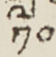༡༠
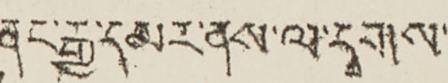ནང་རྒྱ་དམར་ནས་ལ་དྭགས་
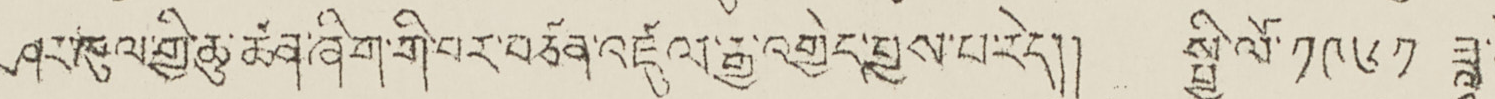ཤར་ཁུལ་གྱི་ཆུ་ཚན་ཞིག་གི་བར་བཙན་འཛུལ་རྒྱ་འགྱེད་བྱས་པ་རེད།། སྤྱི་ལོ་ ༡༩༦༡ ཟླ་
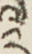༢
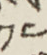༡༤
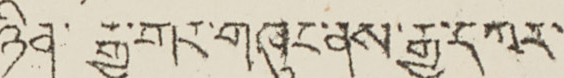ཉིན་རྒྱ་གར་གཞུང་ནས་རྒྱ་དཀར་
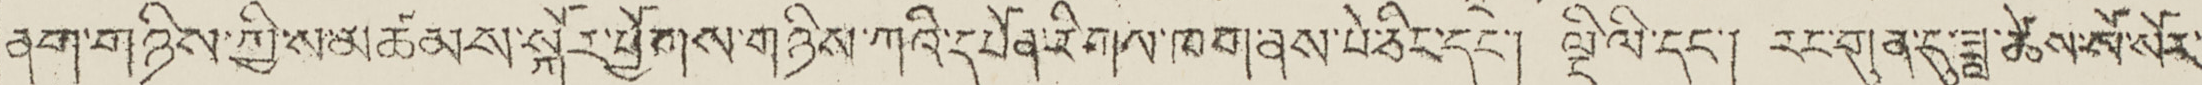ནག་གཉིས་ཀྱིས་མཚམས་སྐོར་ཕྱོགས་གཉིས་ཀའི་དཔོན་རིགས་ཁག་ནས་པེ་ཅིང་དང་། ལྡི་ལི་དང་། རང་གུན་དུ་ཟླ་ཚེས་སོ་སོར་
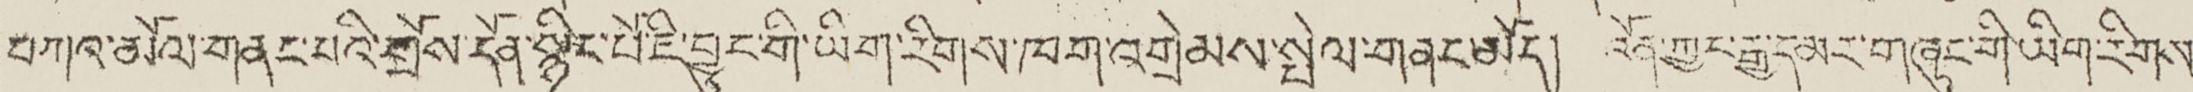བཀའ་མོལ་གནང་པའི་བྲོས་དོན་སྙིང་པོ་ཇི་བྱུང་གི་ཡིག་རིགས་ཁག་འགྲེམས་སྤེལ་གནང་མདོ། འོན་ཀྱང་རྒྱ་དམར་གཞུང་གི་ཡིག་རིགས་
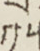༡༥
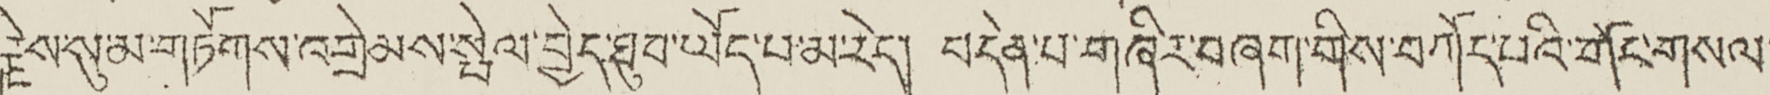རྗེས་སུ་མ་གཏོགས་འགྲེམས་སྤེལ་བྱེད་ཐུབ་ཡོད་པ་མ་རེད་། བདེན་པ་བཞིར་བཞག་གིས་བཀོད་པའི་གོང་གསལ་
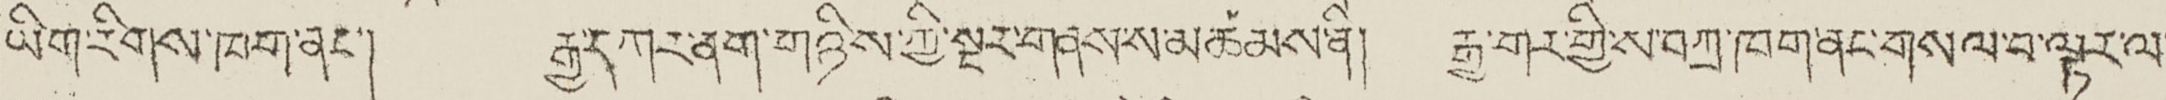ཡིག་རིགས་ཁག་ནང་། རྒྱ་དཀར་ནག་གཉིས་ཀྱི་སྔར་གནས་ས་མཚམས་ནི། རྒྱ་གར་གྱི་ས་བཀྲ་ཁག་ནང་གསལ་བ་ལྟར་ལ་
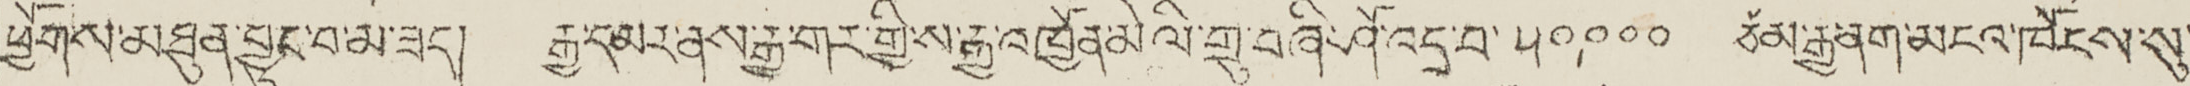ཕྱོགས་མཐུན་བྱུང་བ་མ་ཟད། རྒྱ་དམར་ནས་རྒྱ་གར་གྱི་ས་རྒྱ་འཁྱོན་མེ ལི་གྲུ་བཞི་ཤོ་འདྲ་བ་ ༥༠,༠༠༠ ཙམ་རྒྱ་ནག་མངའ་ཁོངས་སུ་
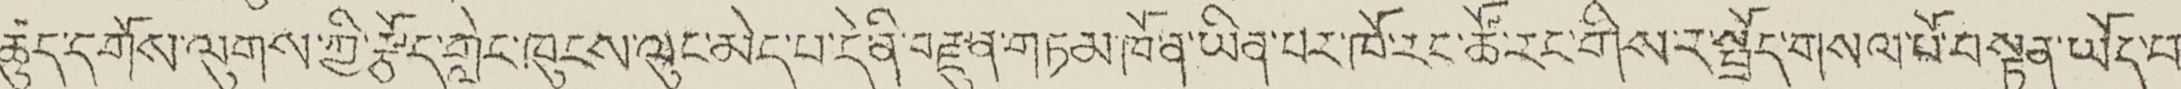ཚུད་དགོས་ལུགས་ཀྱི་རྩོད་གླེང་ཁུངས་ལུང་མེད་པ་དེ་ནི་བརྫུན་གཏམ་ཁོ་ན་ཡིན་པར་ཁོ་རང་ཚོ་རང་གིས་ར་སྤྲོད་གསལ་པོ་བསྟན་ཡོད་པ་
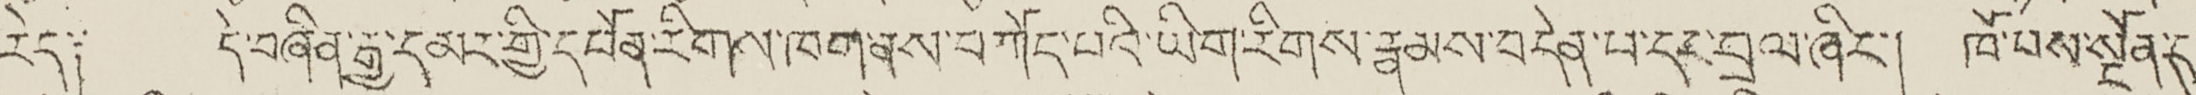རེད༑ དེ་བཞིན་རྒྱ་དམར་གྱི་དཔོན་རིགས་ཁག་ནས་བཀོད་པའི་ཡིག་རིགས་རྣམས་བདེན་པ་དང་བྲལ་ཞིང་། ཁོ་པས་སྔོན་དུ་
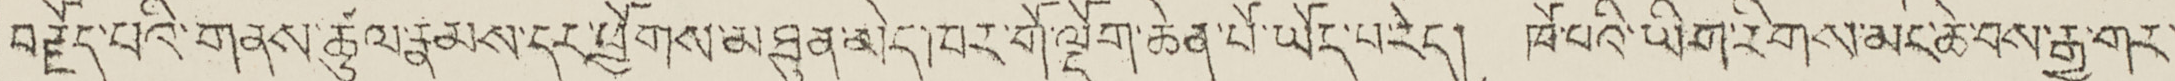བརྗོད་པའི་གནས་ཚུལ་རྣམས་དར་ཕྱོགས་མཐུན་མེད་ཁར་གོ་ལྡོག་ཆེན་པོ་ཡོད་པ་རེད། ཁོ་པའི་ཡིག་རིགས་མང་ཆེ་བས་རྒྱ་གར་
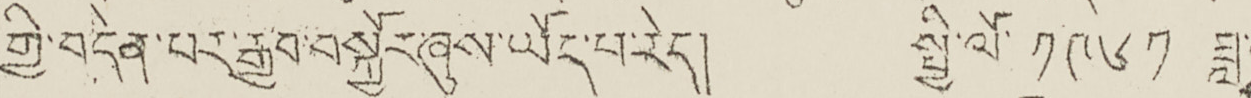གྱི་བདེན་པར་རྒྱབ་བསྐྱོར་ཞུས་ཡོད་པ་རེད། སྤྱི་ལོ་ ༡༩༦༡ ཟླ་
